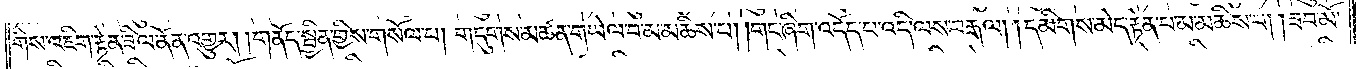གིས་འཇིག་རྟེན་ཟིལ་ནོན་འགྱུར། །གནོད་སྦྱིན་གྱིས་གསོལ་པ། གདུགས་མཚན་གཡེལ་བ་མ་མཆིས་པ། །གང་ཞིག་འདོད་པ་འདི་ལས་བརྒལ། །དམིགས་མེད་རྟེན་པ་མ་མཆིས་པ། །ཟབ་མོ་
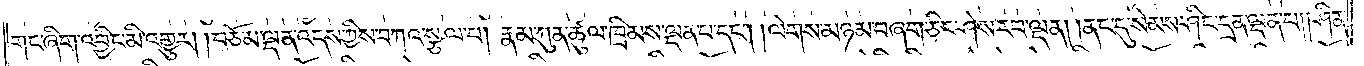གང་ཞིག་འབྱིང་མི་འགྱུར། །བཅོམ་ལྡན་འདས་ཀྱིས་བཀའ་སྩལ་པ། རྣམ་ཀུན་ཚུལ་ཁྲིམས་ལྡན་པ་དང༌། །ལེགས་མཉམ་བཞག་ཅིང་ཤེས་རབ་ལྡན། །ནང་དུ་སེམས་ཤིང་དྲན་ལྡན་པ། །ཤིན་
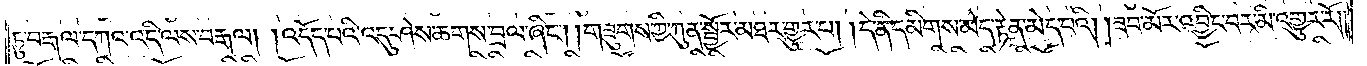ཏུ་བརྒལ་དཀའ་འདི་ལས་བརྒལ། །འདོད་པའི་འདུ་ཤེས་ཆགས་བྲལ་ཞིང༌། །གཟུགས་ཀྱི་ཀུན་སྦྱོར་མཐར་གྱུར་པ། །དེ་ནི་དམིགས་མེད་རྟེན་མེད་པའི། །ཟབ་མོར་འབྱིང་བར་མི་འགྱུར་རོ༎
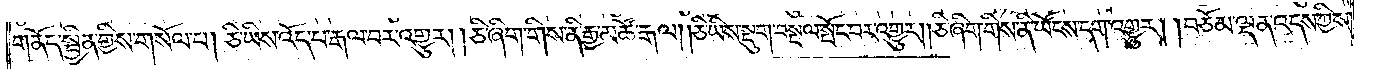གནོད་སྦྱིན་གྱིས་གསོལ་པ། ཅི་ཡིས་འོད་པ་རྒལ་བར་འགྱུར། །ཅི་ཞིག་གིས་ནི་རྒྱ་མཚོ་རྒལ། །ཅི་ཡིས་སྡུག་བསྔལ་སྤོང་བར་འགྱུར། །ཅི་ཞིག་གིས་ནི་ཡོངས་དག་འགྱུར། །བཅོམ་ལྡན་འདས་ཀྱིས་
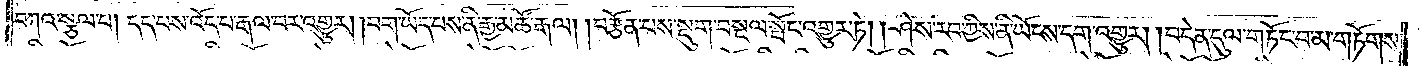བཀའ་སྩལ་པ། དད་པས་འོད་པ་རྒལ་བར་འགྱུར། །བག་ཡོད་པས་ནི་རྒྱ་མཚོ་རྒལ། །བརྩོན་པས་སྡུག་བསྔལ་སྤོང་འགྱུར་ཏེ། །ཤེས་རབ་ཀྱིས་ནི་ཡོངས་དག་འགྱུར། །བདེན་དུལ་གཏོང་བ་མ་གཏོགས་
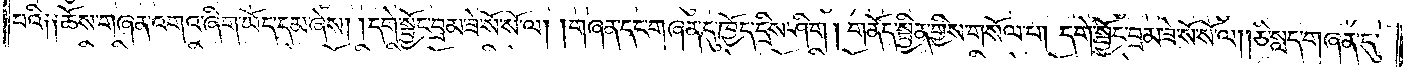པའི༑ ༑ཆོས་གཞན་འགའ་ཞིག་ཡོད་དམ་ཞེས། །དགེ་སྦྱོང་བྲམ་ཟེ་སོ་སོ་ལ། །གཞན་དང་གཞན་དུ་ཁྱོད་དྲིས་ཤིག །གནོད་སྦྱིན་གྱིས་གསོལ་པ། དགེ་སྦྱོང་བྲམ་ཟེ་སོ་སོ་ལ། །ཅི་སླད་གཞན་དུ་
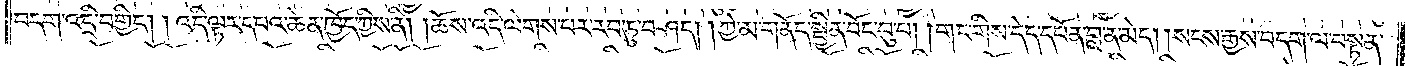བདག་འདྲི་བགྱིད། །འདི་ལྟར་དཔའ་ཆེན་ཁྱོད་ཀྱིས་ནི། །ཆོས་འདི་ལེགས་པར་རབ་ཏུ་བཤད། །ཀྱེ་མ་གནོད་སྦྱིན་བོང་བུ་པ། །གང་གིས་དེད་དཔོན་བླ་ན་མེད། །སངས་རྒྱས་བདག་ལ་བསྟན་
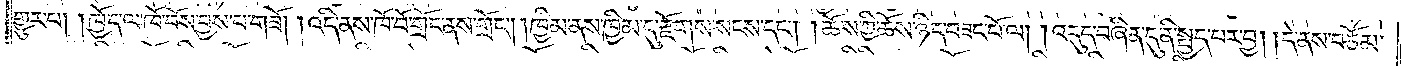གྱུར་པ། །ཁྱོད་ལ་ཁོ་བོས་བྱས་པ་གཟོ། །འདི་ནས་ཁོ་བོ་གྲོང་ནས་གྲོང༌། །ཁྱིམ་ནས་ཁྱིམ་དུ་རྫོགས་སངས་དང༌། །ཆོས་ཀྱི་ཆོས་ཉིད་བཟང་པོ་ལ། །འདུད་བཞིན་དུ་ནི་སྤྱད་པར་བྱ། །དེ་ནས་བཅོམ་
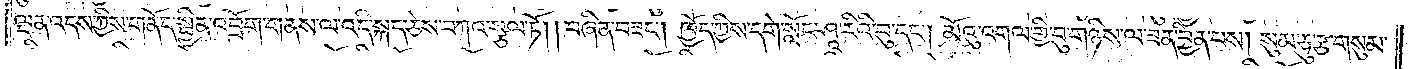ལྡན་འདས་ཀྱིས་གནོད་སྦྱིན་འབྲོག་གནས་ལ་འདི་སྐད་ཅེས་བཀའ་སྩལ་ཏོ། །བཞིན་བཟང༌། ཁྱོད་ཀྱིས་དགེ་སློང་ཤཱ་རིའི་བུ་དང༌། མོའུ་འགལ་གྱི་བུ་གཉིས་ལ་ཟན་བྱིན་པས། སུམ་ཅུ་རྩ་གསུམ་
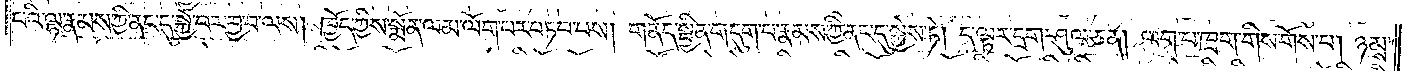པའི་ལྷ་རྣམས་ཀྱི་ནང་དུ་སྐྱེ་བར་བྱ་བ་ལས། ཁྱོད་ཀྱིས་སྨོན་ལམ་ལོག་པར་བཏབ་པས། གནོད་སྦྱིན་གདུག་པ་རྣམས་ཀྱི་ནང་དུ་སྐྱེས་ཏེ། ད་ལྟར་དྲག་ཤུལ་ཅན། ལག་པ་ཁྲག་གིས་གོས་པ། ཉམས་
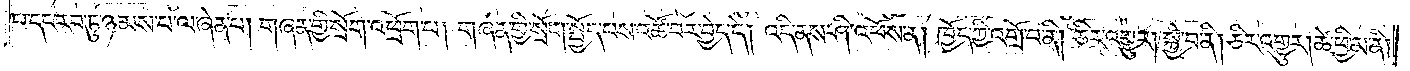པ་དང་རབ་ཏུ་ཉམས་པ་ལ་ཞེན་པ། གཞན་གྱི་སྲོག་འཕྲོག་པ། གཞན་གྱི་སྲོག་སྤྱོད་པས་འཚོ་བར་བྱེད་དེ། འདི་ནས་ཤི་འཕོས་ན། ཁྱོད་ཀྱི་འགྲོ་བ་ནི། ཅིར་འགྱུར། སྐྱེ་བ་ནི། ཅིར་འགྱུར། ཚེ་ཕྱི་མ་ནི།
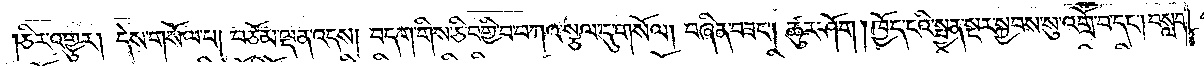ཅིར་འགྱུར། དེས་གསོལ་པ། བཅོམ་ལྡན་འདས། བདག་གིས་ཅི་བགྱི་བ་བཀའ་སྩལ་དུ་གསོལ། བཞིན་བཟང༌། ཚུར་ཤོག །ཁྱོད་ངའི་སྤྱན་སྔར་སྐྱབས་སུ་འགྲོ་བ་དང༌། བསླབ་
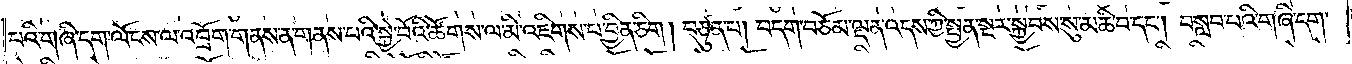པའི་གཞི་དག་ལོངས་ལ་འབྲོག་གནས་ན་གནས་པའི་སྐྱེ་བོའི་ཚོགས་ལ་མི་འཇིགས་པ་བྱིན་ཅིག །བཙུན་པ། བདག་བཅོམ་ལྡན་འདས་ཀྱི་སྤྱན་སྔར་སྐྱབས་སུ་མཆི་བ་དང༌། བསླབ་པའི་གཞི་དག་
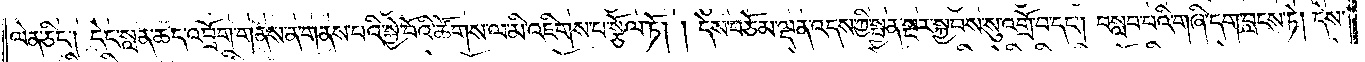ལེན་ཅིང༌། དེང་སླན་ཆད་འབྲོག་གནས་ན་གནས་པའི་སྐྱེ་བོའི་ཚོགས་ལ་མི་འཇིགས་པ་སྩོལ་ཏོ། །དེས་བཅོམ་ལྡན་འདས་ཀྱི་སྤྱན་སྔར་སྐྱབས་སུ་འགྲོ་བ་དང༌། བསླབ་པའི་གཞི་དག་བླངས་ཏེ། དེས་
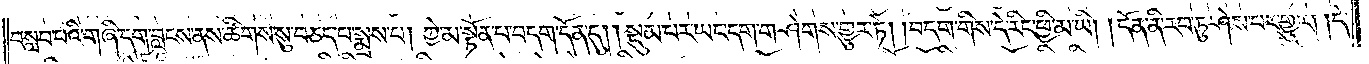བསླབ་པའི་གཞི་དག་བླངས་ནས་ཚིགས་སུ་བཅད་པ་སྨྲས་པ། ཀྱེ་མ་སྟོན་པ་བདག་དོན་དུ། །སྡུམ་པར་ཡང་དག་གཤེགས་གྱུར་ཏེ། །བདག་གིས་དེ་རིང་ཕྱི་མ་ཡི། །དོན་ནི་རབ་ཏུ་ཤེས་པར་གྱུར། །དེ་
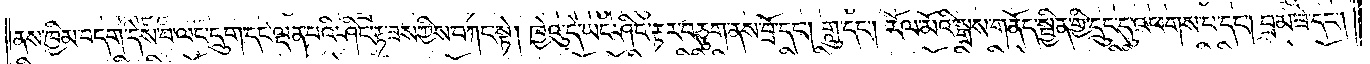ནས་ཁྱིམ་བདག་དེས་བ་ལང་དྲུག་དང་ལྡན་པའི་ཤིང་རྟ་ཟས་ཀྱིས་བཀང་སྟེ། ཁྱེའུ་དེ་ཡང་ཤིང་རྟར་བཅུག་ནས་བྲོ་དང༌། གླུ་དང༌། རོལ་མོའི་སྒྲས་གནོད་སྦྱིན་གྱི་དྲུང་དུ་འཕགས་པ་དང༌། བྲམ་ཟེ་དང༌།
